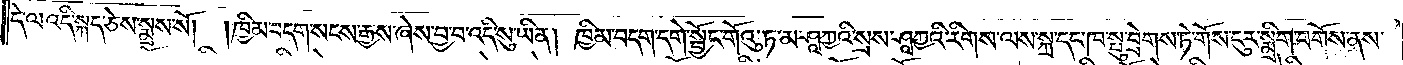དེ་ལ་འདི་སྐད་ཅེས་སྨྲས་སོ། །ཁྱིམ་བདག་སངས་རྒྱས་ཞེས་བྱ་བ་འདི་སུ་ཡིན། ཁྱིམ་བདག་དགེ་སྦྱོང་གོའུ་ཏ་མ་ཤཱཀྱའི་སྲས་ཤཱཀྱའི་རིགས་ལས་སྐྲ་དང་ཁ་སྤུ་བྲེགས་ཏེ་གོས་ངུར་སྨྲིག་བགོས་ནས་
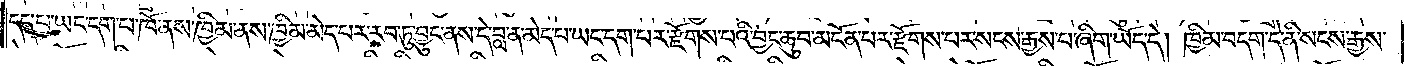དད་པ་ཡང་དག་པ་ཁོ་ནས་ཁྱིམ་ནས་ཁྱིམ་མེད་པར་རབ་ཏུ་བྱུང་ནས་དེ་བླ་ན་མེད་པ་ཡང་དག་པར་རྫོགས་པའི་བྱང་ཆུབ་མངོན་པར་རྫོགས་པར་སངས་རྒྱས་པ་ཞིག་ཡོད་དེ། ཁྱིམ་བདག་དེ་ནི་སངས་རྒྱས་
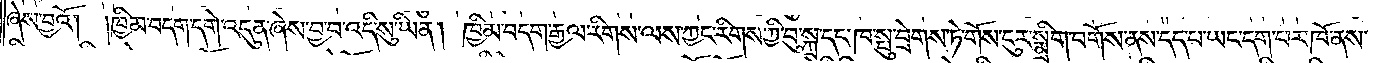ཞེས་བྱའོ། །ཁྱིམ་བདག་དགེ་འདུན་ཞེས་བྱ་བ་འདི་སུ་ཡིན། ཁྱིམ་བདག་རྒྱལ་རིགས་ལས་ཀྱང་རིགས་ཀྱི་བུ་སྐྲ་དང་ཁ་སྤུ་བྲེགས་ཏེ་གོས་ངུར་སྨྲིག་བགོས་ནས་དད་པ་ཡང་དག་པར་ཁོ་ནས་
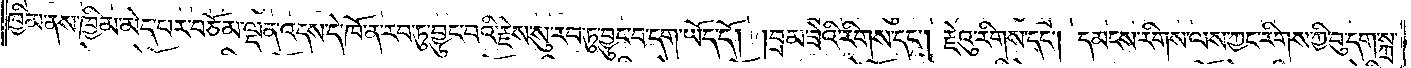ཁྱིམ་ནས་ཁྱིམ་མེད་པར་བཅོམ་ལྡན་འདས་དེ་ཁོ་ན་རབ་ཏུ་བྱུང་བའི་རྗེས་སུ་རབ་ཏུ་བྱུང་བ་དག་ཡོད་དོ། །བྲམ་ཟེའི་རིགས་དང༌། རྗེའུ་རིགས་དང༌། དམངས་རིགས་ལས་ཀྱང་རིགས་ཀྱི་བུ་དག་སྐྲ་
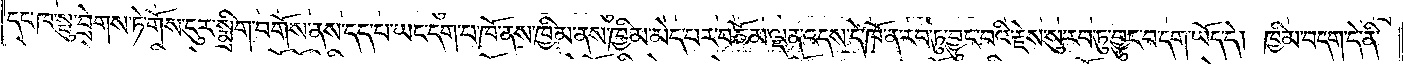དང་ཁ་སྤུ་བྲེགས་ཏེ་གོས་ངུར་སྨྲིག་བགོས་ནས་དད་པ་ཡང་དག་པ་ཁོ་ནས་ཁྱིམ་ནས་ཁྱིམ་མེད་པར་བཅོམ་ལྡན་འདས་དེ་ཁོ་ན་རབ་ཏུ་བྱུང་བའི་རྗེས་སུ་རབ་ཏུ་བྱུང་བ་དག་ཡོད་དེ། ཁྱིམ་བདག་དེ་ནི་
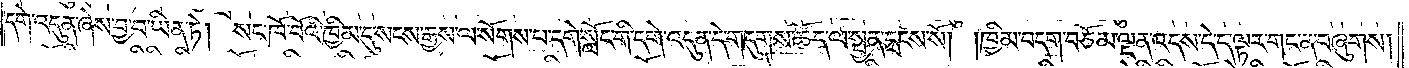དགེ་འདུན་ཞེས་བྱ་བ་ཡིན་ཏེ། སང་ཁོ་བོའི་ཁྱིམ་དུ་སངས་རྒྱས་ལ་སོགས་པ་དགེ་སློང་གི་དགེ་འདུན་དེ་གདུགས་ཚོད་ལ་སྤྱན་དྲངས་སོ། །ཁྱིམ་བདག་བཅོམ་ལྡན་འདས་དེ་ད་ལྟར་གང་ན་བཞུགས།
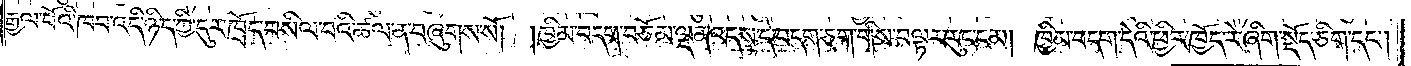རྒྱལ་པོའི་ཁབ་འདི་ཉིད་ཀྱི་དུར་ཁྲོད་བསིལ་བའི་ཚལ་ན་བཞུགས་སོ། །ཁྱིམ་བདག་བཅོམ་ལྡན་འདས་དེ་བདག་ཅག་གིས་བལྟར་རུང་ངམ། ཁྱིམ་བདག་དེའི་ཕྱིར་ཁྱོད་རེ་ཞིག་སྡོད་ཅིག་དང༌།
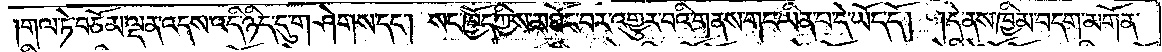གལ་ཏེ་བཅོམ་ལྡན་འདས་འདི་ཉིད་དུ་གཤེགས་དང༌། སང་ཁྱོད་ཀྱིས་མཐོང་བར་འགྱུར་བའི་གནས་གང་ཡིན་པ་དེ་ཡོད་དོ། །དེ་ནས་ཁྱིམ་བདག་མགོན་
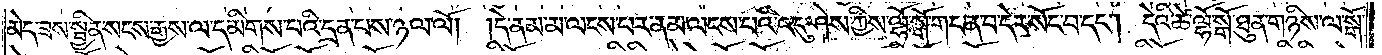མེད་ཟས་སྦྱིན་སངས་རྒྱས་ལ་དམིགས་པའི་དྲན་པས་ཉལ་ལོ། །དེ་ནམ་མ་ལངས་པར་ནམ་ལངས་པའི་འདུ་ཤེས་ཀྱིས་ལྷོ་སྒོ་གང་ན་བ་དེར་སོང་བ་དང༌། དེའི་ཚེ་ལྷོ་སྒོ་ཐུན་གཉིས་ལ་སྒོ་
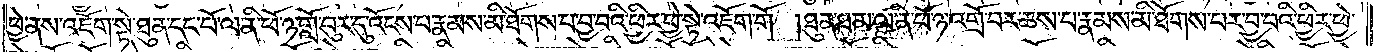ཕྱེ་ནས་འཇོག་སྟེ་ཐུན་དང་པོ་ལ་ནི་ཕོ་ཉ་གློ་བུར་དུ་འོངས་པ་རྣམས་མི་ཐོགས་པ་བྱ་བའི་ཕྱིར་ཕྱེ་སྟེ་འཇོག་གོ །ཐུན་ཐ་མ་ལ་ནི་ཕོ་ཉ་འགྲོ་བར་ཆས་པ་རྣམས་མི་ཐོགས་པར་བྱ་བའི་ཕྱིར་ཕྱེ་
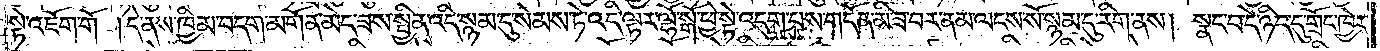སྟེ་འཇོག་གོ །དེ་ནས་ཁྱིམ་བདག་མགོན་མེད་ཟས་སྦྱིན་འདི་སྙམ་དུ་སེམས་ཏེ་འདི་ལྟར་ལྷོ་སྒོ་ཕྱེ་སྟེ་འདུག་པས་གདོན་མི་ཟ་བར་ནམ་ལངས་སོ་སྙམ་དུ་རིག་ནས། སྣང་བ་དེ་ཉིད་དུ་གྲོང་ཁྱེར་
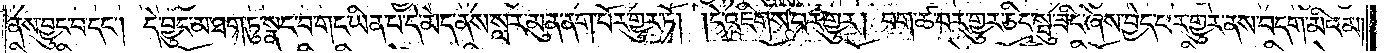ནས་བྱུང་བ་དང༌། དེ་བྱུང་མ་ཐག་ཏུ་སྣང་བ་གང་ཡིན་པ་དེ་མེད་ནས་སླར་མུན་ནག་པོར་གྱུར་ཏོ། །དེ་འཇིགས་པར་གྱུར། བག་ཚ་བར་གྱུར་ཅིང་སྤུ་ཟིང་ཞེས་བྱེད་པར་གྱུར་ནས་བདག་མིའམ།
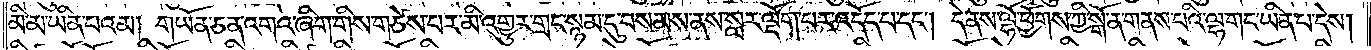མི་མ་ཡིན་པའམ། གཡོན་ཅན་འགའ་ཞིག་གིས་གཙེས་པར་མི་འགྱུར་གྲང་སྙམ་དུ་བསམས་ནས་སླར་ལྡོག་པར་འདོད་པ་དང༌། དེ་ནས་ལྷོ་ཕྱོགས་ཀྱི་སྒོ་ན་གནས་པའི་ལྷ་གང་ཡིན་པ་དེས།
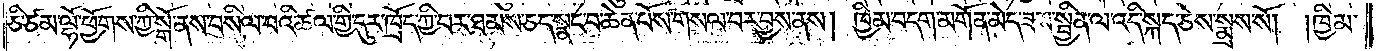ཅི་ཙམ་ལྷོ་ཕྱོགས་ཀྱི་སྒོ་ནས་བསིལ་བའི་ཚལ་གྱི་དུར་ཁྲོད་ཀྱི་བར་ཐམས་ཅད་སྣང་བ་ཆེན་པོས་གསལ་བར་བྱས་ནས། ཁྱིམ་བདག་མགོན་མེད་ཟས་སྦྱིན་ལ་འདི་སྐད་ཅེས་སྨྲས་སོ། །ཁྱིམ་
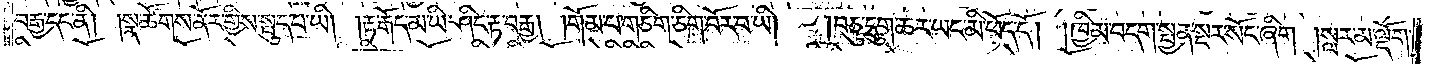བརྒྱ་དང་ནི། །སྣ་ཚོགས་ནོར་གྱིས་སྤུད་པ་ཡི། །རྟ་རྒོད་མ་ཡི་ཤིང་རྟ་བརྒྱ། །གོམ་པ་གཅིག་ཅིག་བོར་བ་ཡི། །བཅུ་དྲུག་ཆར་ཡང་མི་ཕོད་དོ། །ཁྱིམ་བདག་སྤྱན་སྔར་སོང་ཞིག །སླར་མ་ལྡོག་
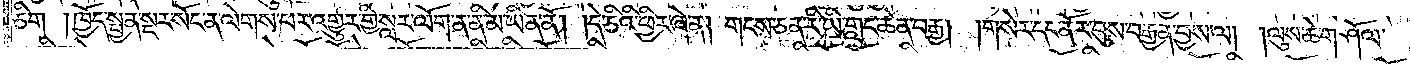ཅིག །ཁྱོད་སྤྱན་སྔར་སོང་ན་ལེགས་པར་འགྱུར་གྱི་སླར་ལོག་ན་ནི་མ་ཡིན་ནོ། །དེ་ཅིའི་ཕྱིར་ཞེ་ན། གངས་ཅན་རི་ཡི་གླང་ཆེན་བརྒྱ། །གསེར་དང་ནོར་བུས་བརྒྱན་བྱས་ལ། །ལུས་ཆེ་གཤོལ་
